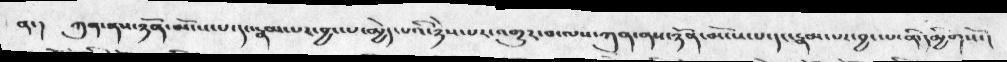ན་།   ཀུན་ནས་ཉོན་མོངས་པ་དང་རྣམ་པར་བྱང་པ་མྱེད་པའི་ཉེས་པར་འགྱུར་བ་ལས་ཀུན་ནས་ཉོན་མོངས་པ་དང་རྣམ་པར་བྱང་པ་ནི་དམྱིགསོ་།
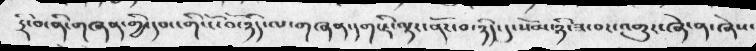དྲི་བ་ནི་གཞན་གྱི་དབང་གི་ངོ་བོ་ཉིད་ལ་གཞན་དག་ཇི་ལྟར་ནོར་བ་ཉིད་དུ་སོམ་ཉི་ཟ་བར་འགྱུར་ཞེ་ན་ཞེས་
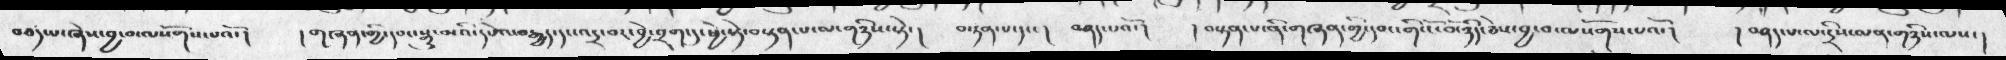བཅད་པ་ཞེས་བྱ་བ་ལསོགས་པའོ་།    ། གཞན་གྱི་དབང་སྒྱུ་མའི་དཔེའ་བརྒྱད་དང་འདྲ་བར་བྱ་བྲག་དུ་ཕྱེ་སྟེ་བསྟན་པ་ལ་གཉིས་སྟེ་།   བསྟན་པ་དང་།    བཤད་པའོ་ །   ། བསྟན་པ་ནི་གཞན་གྱི་དབང་གི་ངོ་བོ་ཉིད་ཅེས་བྱ་བ་ལསོགས་པའོ་།      ། བཤད་པ་ལ་དྲིས་ལན་གཉིས་ལས་།
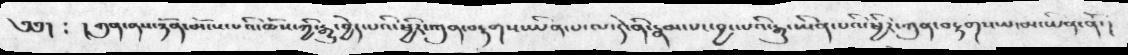༄༅།  ༴  ། ཀུན་ནས་ཉོན་མོངས་པའི་ཆོས་ཀྱི་རྒྱུ་བྱེད་པའི་ཕྱིར་ཀུན་བརྟགས་ཡིན་པ་ལ་དེ་ནི་རྣམ་པར་བྱང་པའི་རྒྱུ་ཡིན་པའི་ཕྱིར་ཀུན་བརྟགས་པ་མ་ཡིན་ནོ་།
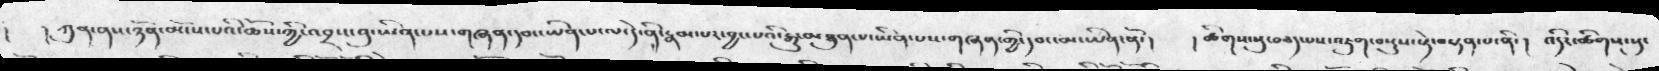།  ། ཀུན་ནས་ཉོན་མོངས་པའི་ཆོས་ཀྱི་འབྲས་བུ་ཡིན་པས་གཞན་དབང་ཡིན་པ་ལ་དེ་ནི་རྣམ་པར་བྱང་པའི་རྒྱུ་མཐུན་པ་ཡིན་པས་གཞན་གྱི་དབང་མ་ཡིན་ནོ་།  ། ཚིགས་སུ་བཅད་པས་འཇུག་བསྡུས་སྟེ་བསྟན་པ་ནི་།  འདིར་ཚིགས་སུ་
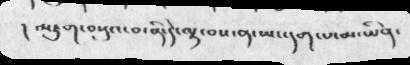།མཇུག་བསྡུའ་བ་ནི་དེ་ལྟ་བས་ན་ཡང་དག་པ་མ་ཡིན་
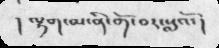།  ལྷག་མ་ནི་གོ་བར་སླའོ་ །
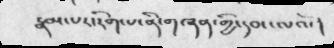རྣམ་པར་རིག་པ་ནི་གཞན་གྱི་དབང་ལའོ་ །
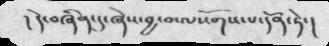།  དེ་བཞིན་དུ་ཞེས་བྱ་བ་ལསོགས་པ་དོན་ཏེ་།
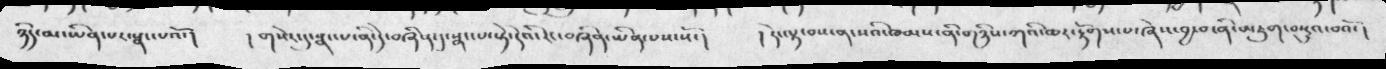ཉིད་མ་ཡིན་པར་སྣང་པའོ།   ། གསེར་དུ་སྣང་པ་ནི་དེ་བཞིན་དུ་སྣང་པ་སྟེ་དེའི་རང་བཞིན་ཡིན་པས་སོ་།   ། དེ་ལྟ་བས་ན་སའི་ཁམས་ནི་གཉིས་ཀའི་ཆར་རྟོགས་པ་ཞེས་བྱ་བ་ནི་མཇུག་བསྡུའ་བའོ་།
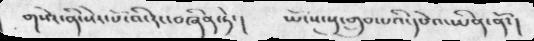གསེར་ནི་སེར་པོ་འི་རང་བཞིན་ཏེ་།  ཡོངས་སུ་གྲུབ་པའི་དཔེའ་ཡིན་ནོ་།
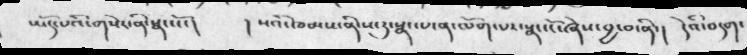ཡོད་པའི་གསེར་ནི་སྣང་ངོ་།    །  སའི་ཁམས་ནི་ས་རུ་སྣང་པ་ན་ལོག་པར་སྣང་ངོ་ཞེས་བྱ་བ་ནི་།     དེའི་བདག་
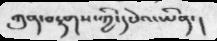ཀུན་བརྟགས་ཀྱི་དཔེའ་ཡིན་ །
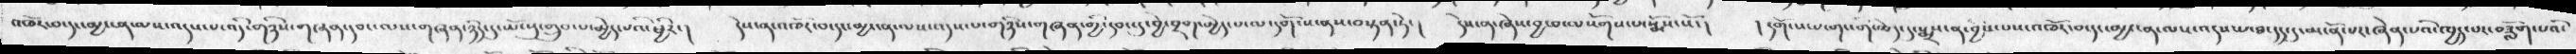འཁོར་བ་དང་མྱ་ངན་ལས་འདས་པ་འདི་གཉིས་ག་གཞན་དབང་ལས་གཞན་ཉིད་དུ་ཡོངསུ་གྲུབ་པ་མྱེད་པའི་ཕྱིར་།   དེས་ན་འཁོར་བ་དང་མྱ་ངན་ལས་འདས་པ་གཉིས་གཞན་གྱི་དབང་དུ་བྱེ་བྲག་མྱེད་པ་ལ་དགོངས་ནས་བསྟན་ཏེ་།  དེ་ན་ཞེས་བྱ་བ་ལསོགས་པ་སྨོས་སོ་།   ། དགོངས་པ་གང་གི་ཆེད་དུ་སྨྲས་ན་བྱཾས་པས་འཁོར་བ་དང་མྱ་ངན་ལས་འདས་པ་ཐ་དད་དུ་མངོན་པར་ཞེན་པའི་ཁྱད་པར་བཟློག་པའི་
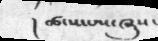།  ཚངས་པས་ཞུས་
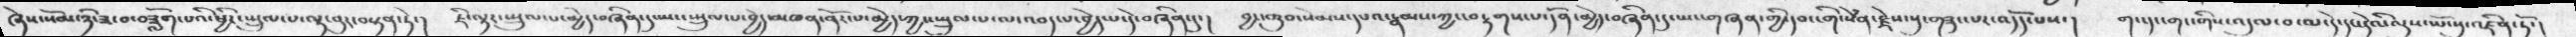ཞེས་སོམ་ཉི་ཟ་བ་བཟློག་པའི་ཕྱིར་ཡྲུལ་པ་ལྟ་བུར་བསྟན་ཏེ་།   ཇི་ལྟར་ཡྲུལ་པ་མྱེད་བཞིན་དུ་ཡང་ཡྲུལ་པ་བྱེད་མཁན་ནོར་པ་མྱེད་ཀྱང་ཡྲུལ་པ་ལ་འབད་པ་བྱེད་པ་དེ་བཞིན་དུ་།   བྱང་ཆུབ་སེམས་དཔའ་རྣམས་ཀྱང་བརྟགས་པ་དོན་མྱེད་བཞིན་དུ་ཡང་གཞན་གྱི་དབང་གི་སེཾན་རྗེས་སུ་གཟུང་པར་འདོད་པས་།  གང་དང་གང་གིས་འདུལ་བ་ལ་དེ་དང་དེའི་ལྟས་ཡོངསུ་འཛིན་ཏོ་ །
